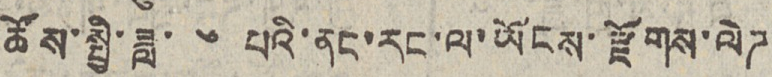ཚོས་སྤྱི་ཟླ་ ༦ པའི་ནང་རང་ལ་ཡོངས་རྫོགས་ལེཊ
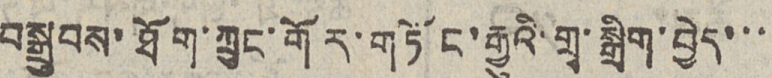བསྒྲུབས་ཐོག་ཀྲུང་གོར་གཏོང་རྒྱུའི་གྲྭ་སྒྲིག་བྱེད་་་
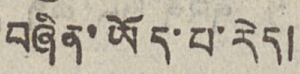བཞིན་ཡོད་པ་རེད།
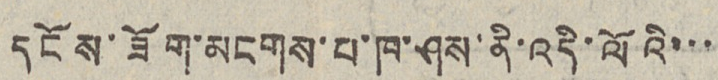དངོས་ཟོག་མངགས་པ་ཁ་ཤས་ནི་འདི་ལོའི་་་
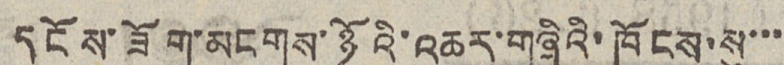དངོས་ཟོག་མངགས་ཉོའི་འཆར་གཞིའི་ཁོངས་སུ་་་
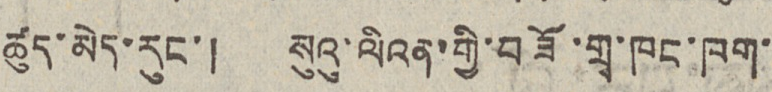ཚུད་མེད་རུང་། སུའུ་ལིའན་གྱི་བཟོ་གྲྭ་ཁང་ཁག་
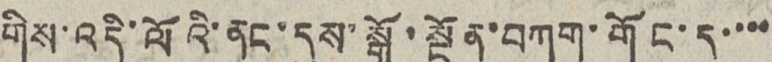གིས་འདི་ལོའི་ནང་དུས་སྒོ་སྔོན་བཀག་གོང་དུ་་་་
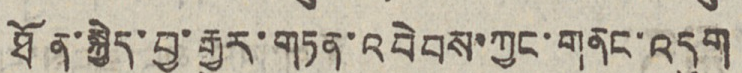ཐོན་སྐྱེད་བྱ་རྒྱུར་གཏན་འབེབས་ཀྱང་གནང་འདུག
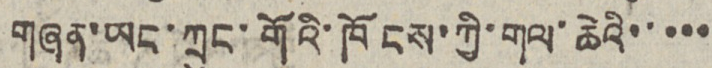གཞན་ཡང་ཀྲུང་གོའི་ཁོངས་ཀྱི་གལ་ཆེའི་་་་་
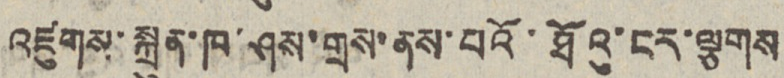འཛུགས་སྐྲུན་ཁ་ཤས་གྲས་ནས་པའོ་ཐོའུ་ངར་ལྕགས
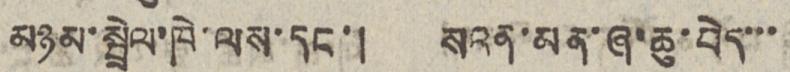མཉམ་སྦྲེལ་ཁེ་ལས་དང་། སའན་མན་ཞ་ཆུ་བེད་་་
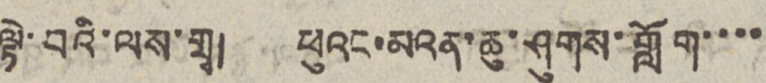ལྟེ་བའི་ལས་གྲྭ། ཕུའང་མའན་ཆུ་ཤུགས་གློག་་་་
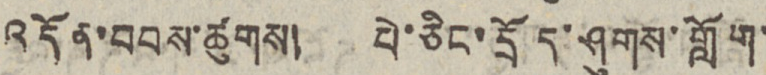འདོན་བབས་ཚུགས། པེ་ཅིང་དྲོད་ཤུགས་གློག་
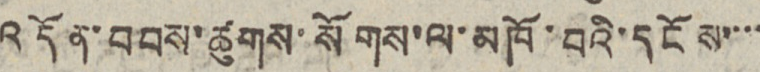འདོན་བབས་ཚུགས་སོགས་ལ་མཁོ་བའི་དངོས་་་་
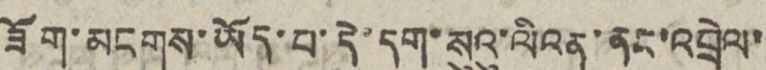ཟོག་མངགས་ཡོད་པ་དེ་དག་སུའུ་ལིའན་ནང་འབྲེལ་
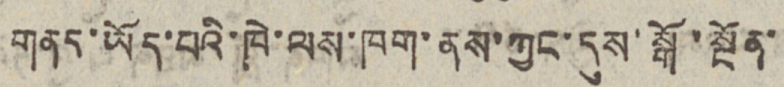གནད་ཡོད་པའི་ཁེ་ལས་ཁག་ནས་ཀྱང་དུས་སྒོ་སྔོན་
